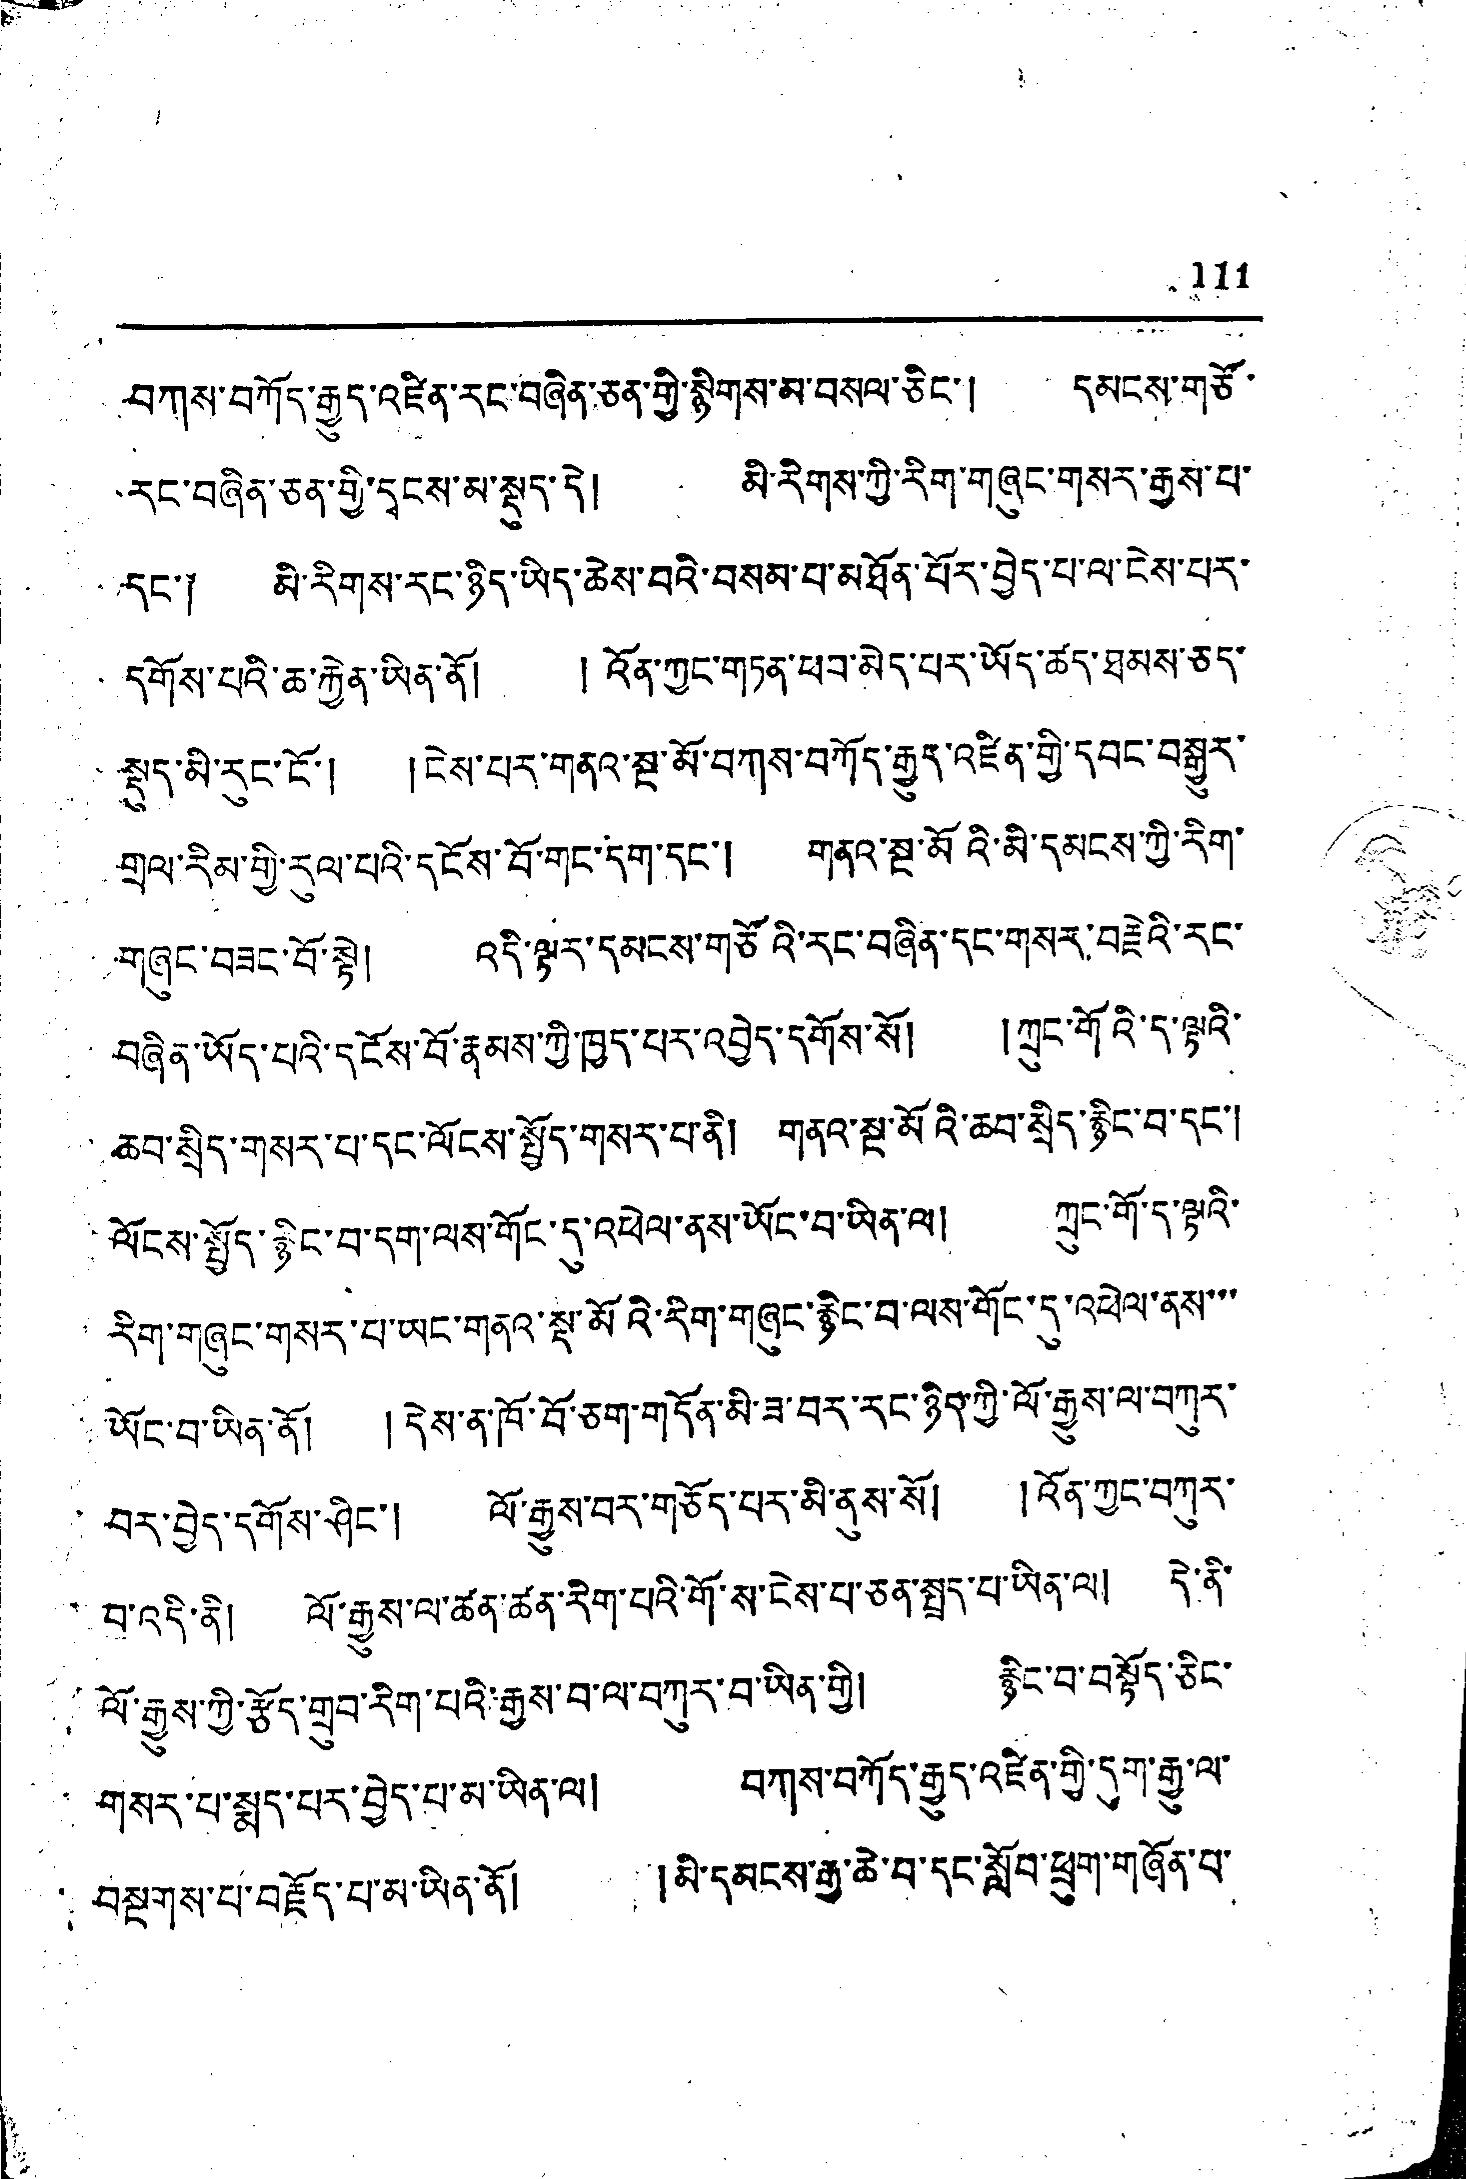111
བཀས་བཀོད་རྒྱུད་འཛིན་རང་བཞིན་ཅན་གྱི་སྙིགས་མ་བསལ་ཅིང་། དམངས་གཙོ་
རང་བཞིན་ཅན་གྱི་དྭངས་མ་སྡུད་དེ། མི་རིགས་ཀྱི་རིག་གཞུང་གསར་རྒྱས་པ་
དང་། མི་རིགས་རང་ཉིད་ཡིད་ཆེས་བའི་བསམ་པ་མཐོན་པོར་བྱེད་པ་ལ་ངེས་པར་
དགོས་པའི་ཆ་རྐྱེན་ཡིན་ནོ། ། འོན་ཀྱང་གཏན་ཕབ་མེད་པར་ཡོད་ཚད་ཐམས་ཅད
སྡུད་མི་རུང་ངོ་། །ངེས་པར་གནའ་སྔ་མོ་བཀས་བཀོད་རྒྱུད་འཛིན་གྱི་དབང་བསྒྱུར་
གྲལ་རིམ་གྱི་རུལ་པའི་དངོས་བོ་གང་དག་དང་། གནའ་སྔ་མོའི་མི་དམངས་ཀྱི་རིག་
གཞུང་བཟང་བོ་སྟེ། འདི་ལྟར་དམངས་གཙོའི་རང་བཞིན་དང་གསར་བརྗེའི་རང་
བཞིན་ཡོད་པའི་དངོས་བོ་རྣམས་ཀྱི་ཁྱད་པར་འབྱེད་དགོས་སོ། །ཀྲུང་གོའི་ད་ལྟའི་
ཆབ་སྲིད་གསར་པ་དང་ལོངས་སྤྱོད་གསར་པ་ནི། གནའ་སྔ་མོའི་ཆབ་སྲིད་རྙིང་བ་དང་།
ལོངས་སྤྱོད་རྙིང་བ་དག་ལས་གོང་དུ་འཕེལ་ནས་ཡོང་བ་ཡིན་ལ། ཀྲུང་གོ་ད་ལྟའི་
རིག་གཞུང་གསར་པ་ཡང་གནའ་སྡ་མོའི་རིག་གཞུང་རྙིང་བ་ལས་གོང་དུ་འཕེལ་ནས་་་
ཡོང་བ་ཡིན་ནོ། །དེས་ན་ཁོ་བོ་ཅག་གདོན་མི་ཟ་བར་རང་ཉིད་ཀྱི་ལོ་རྒྱུས་ལ་བཀུར་
བར་བྱེད་དགོས་ཤིང་། ལོ་རྒྱུས་བར་གཅོད་པར་མི་ནུས་སོ། །འོན་ཀྱང་བཀུར་
བ འདི་ནི། ལོ་རྒྱུས་ལ་ཚན་ཚན་རིག་པའི་གོ་ས་ངེས་པ་ཅན་པྲད་པ་ཡིན་ལ། དེ་ནི་
ལོ་རྒྱུས་ཀྱི་རྩོད་གྲུབ་རིག་པའི་རྒྱས་བ་ལ་བཀུར་བ་ཡིན་གྱི། རྙིང་བ་བསྟོད་ཅིང་
གསར་པ་སྨད་པར་བྱེད་པ་མ་ཡིན་ལ། བཀས་བཀོད་རྒྱུད་འཛིན་གྱི་དུག་རྒྱུ་ལ་
བསྔགས་པ་བརྗོད་པ་མ་ཡིན་ནོ། །མི་དམངས་རྒྱ་ཆེ་བ་དང་སློབ་ཕྲུག་གཞོན་པ་
